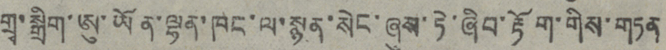གྲྭ་སྒྲིག་ཨུ་ཡོན་ལྷན་ཁང་ལ་སྙན་སེང་ཞུས་ཏེ་ཞིབ་རྟོག་གིས་གཏན་
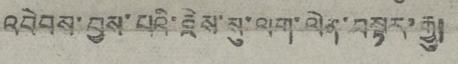འབེབས་བྱས་པའི་རྗེས་སུ་ལག་ལེན་བསྟར་རྒྱུ།
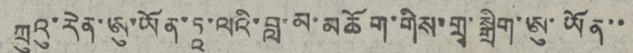ཀྲུའུ་རེན་ཨུ་ཡོན་ཏཱ་ལའི་བླ་མ་མཆོག་གིས་གྲྭ་སྒྲིག་ཨུ་ཡོན་་་
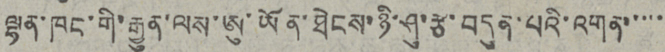ལྷན་ཁང་གི་རྒྱུན་ལས་ཨུ་ཡོན་ཐེངས་ཉི་ཤུ་རྩ་བདུན་པའི་འགན་་་་་
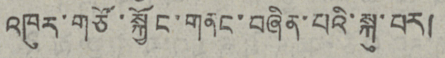འཁུར་གཙོ་སྐྱོང་གནང་བཞིན་པའི་སྐུ་པར།
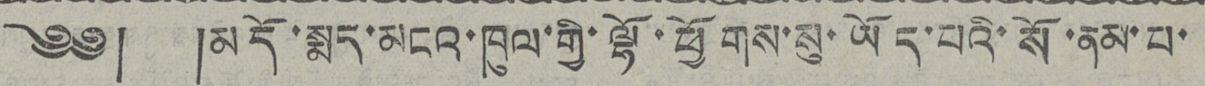༄༅། །མདོ་སྨད་མངའ་ཁུལ་གྱི་ལྷོ་ཕྱོགས་སུ་ཡོད་པའི་སོ་ནམ་པ་་
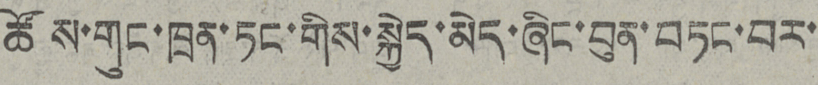ཚོས་གུང་ཁྲན་ཏང་གིས་སྐྱེད་མེད་ཞིང་བུན་བཏང་བར་་
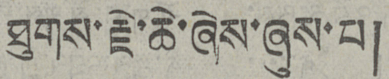ཐུགས་རྗེ་ཆེ་ཞེས་ཞུས་པ།
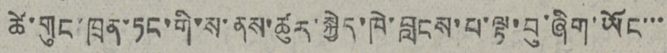ཚེ་གུང་ཁྲན་ཏང་གི་ས་ནས་ཚུར་སྐྱེད་ཁེ་བླངས་པ་ལྟ་བུ་ཞིག་ཡོང་་་་
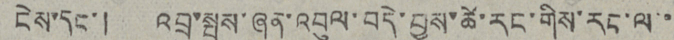ངེས་དང་། འབྲུ་སྤུས་ཞན་འབུལ་བདེ་བྱས་ཚེ་རང་གིས་རང་ལ་་
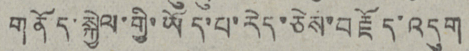གནོད་སྐྱེལ་གྱི་ཡོད་པ་རེད་ཅེས་བརྗོད་འདུག
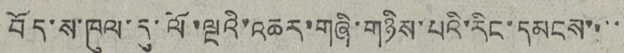བོད་ས་ཁུལ་དུ་ལོ་ལྔའི་འཆར་གཞི་གཉིས་པའི་རིང་དམངས་་་་
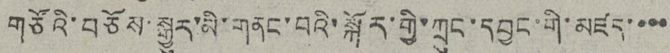གཙོའི་བཅོས་སྒྱུར་མི་གནང་བའི་སྐོར་གྱི་ཀྲུང་དབྱང་གི་མཛད་་་་
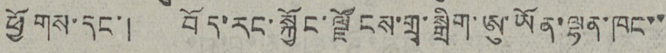ཕྱོགས་དང་། བོད་རང་སྐྱོང་ལྗོངས་གྲྭ་སྒྲིག་ཨུ་ཡོན་ལྷན་ཁང་་
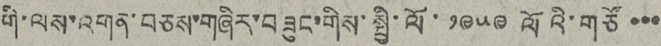གི་ལས་འགན་བཅས་གཞིར་བཟུང་གིས་སྤྱི་ལོ་ ༡༩༥༩ ལོའི་གཙོ་་་་
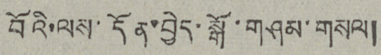བོའི་ལས་དོན་བྱེད་སྒོ་གཤམ་གསལ།
